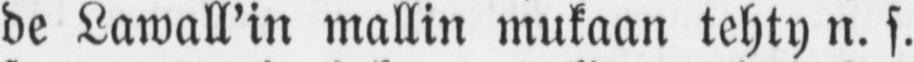de Lawall'in mallin mukaan tehty n.s.
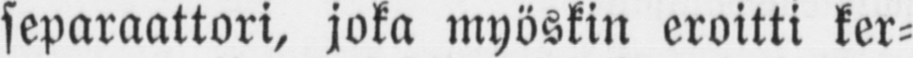separaattori, joka myöskin eroitti ker-
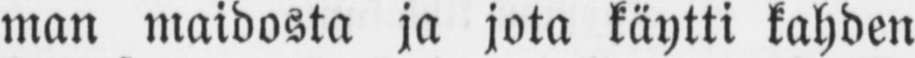man maidosta ja jota käytti kahden
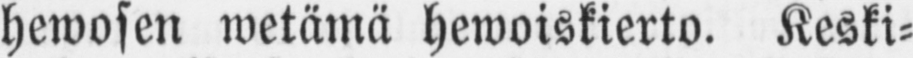hewosen wetämä hewoiskierto. Keski-
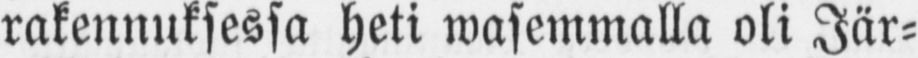rakennuksessa heti wasemmalla oli Jär-
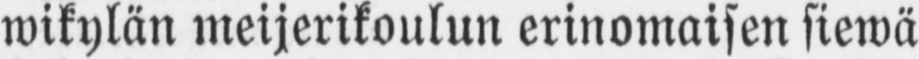wikylän meijerikoulun erinomaisen siewä
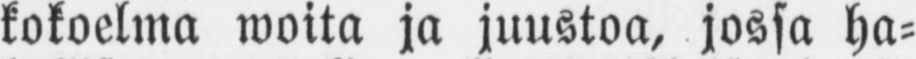kokoelma woita ja juustoa, jossa ha-
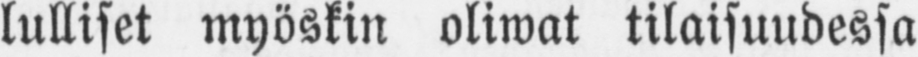lulliset myöskin oliwat tilaisuudessa
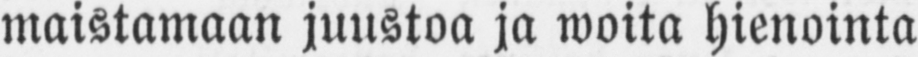maistamaan juustoa ja woita hienointa
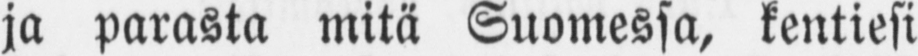ja parasta mitä Suomessa, kentiesi
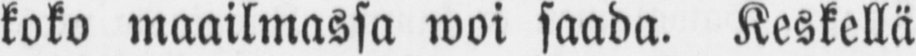koko maailmassa woi saada. Keskellä
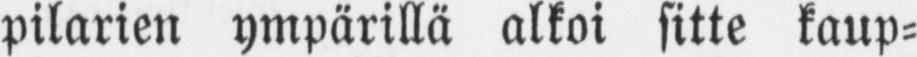pilarien ympärillä alkoi sitte kaup-
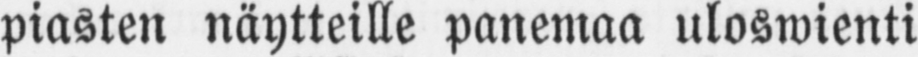piasten näytteille panemaa uloswienti
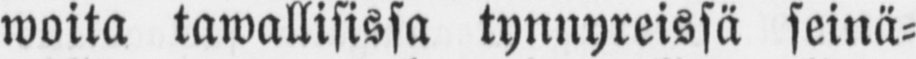woita tuwallisissa tynnyreissä seinä-
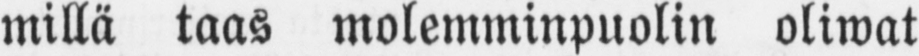millä taas molemminpuolin oliwat
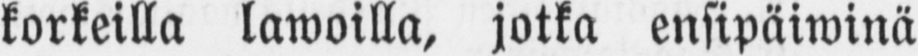korkeilla lawoilla, jotka ensipäiwinä
